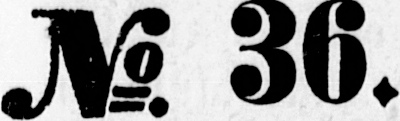No. 36.
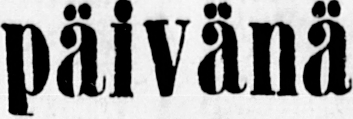Perjantaina Syyskuun 9 päivänä
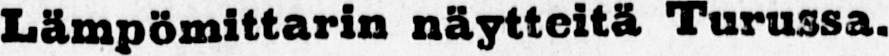Lämpö mittarin näytteitä Turussa.
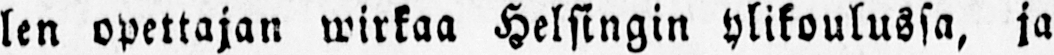len opettajan wirkaa Helsingin ylikoulussa, ja
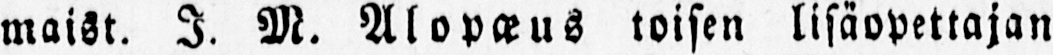maist. J. M. Alopæus toisen lisäopettajan
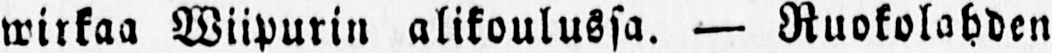wirkaa Wiipurin alikoulussa. — Ruokolahden
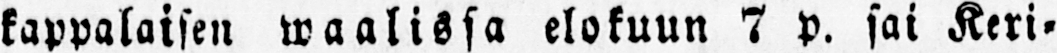kappalaisen waalissa elokuun 7 p. sai Keri-
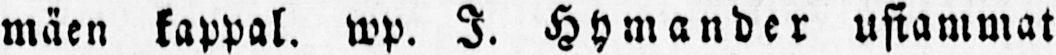mäen kappal. wp. I. Hymander usiammat
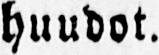huudot.
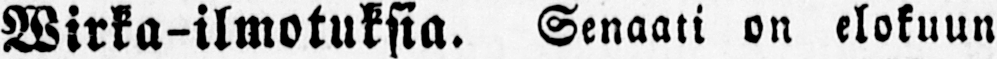Wirka-ilmotuksia. Senaati on elokuun
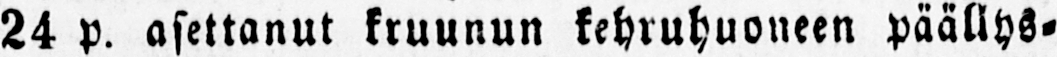24 p. asettanut kruunun kehruhuoneen päällys-
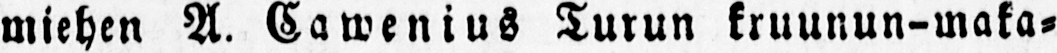miehen A. Cawenius Turun kruunun-maka-
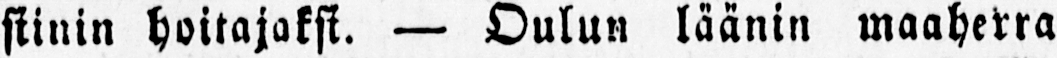siinin hoitajaksi. — Oulun läänin maaherra
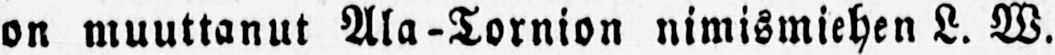on muuttanut Ala-Tornion nimismiehen L. W.
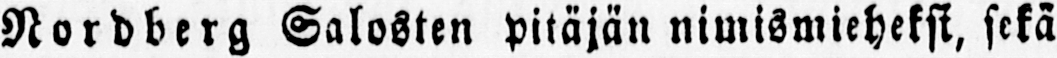Nordberg Salosten pitäjän nimismieheksi, sekä
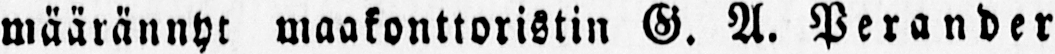määrännyt maakonttoristin G. A. Perander
